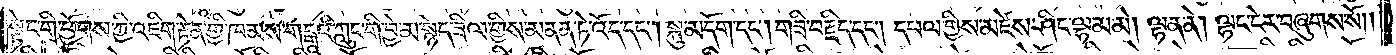སྟེང་གི་ཕྱོགས་ཀྱི་འཇིག་རྟེན་གྱི་ཁམས་གངྒཱའི་ཀླུང་གི་བྱེ་མ་སྙེད་ཟིལ་གྱིས་མནན་ཏེ་འོད་དང༌། སྐུ་མདོག་དང༌། གཟི་བརྗིད་དང༌། དཔལ་གྱིས་མཛེས་ཤིང་ལྷམ་མེ། ལྷན་ནེ། ལྷང་ངེར་བཞུགས་སོ༎
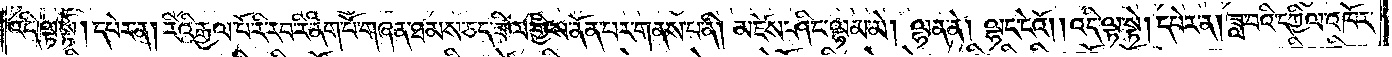འདི་ལྟ་སྟེ། དཔེར་ན། རིའི་རྒྱལ་པོ་རི་རབ་རི་ནག་པོ་གཞན་ཐམས་ཅད་ཟིལ་གྱིས་ནོན་པར་གནས་པ་ནི། མཛེས་ཤིང་ལྷམ་མེ། ལྷན་ནེ། ལྷང་ངེའོ། །འདི་ལྟ་སྟེ། དཔེར་ན། ཟླ་བའི་དཀྱིལ་འཁོར་
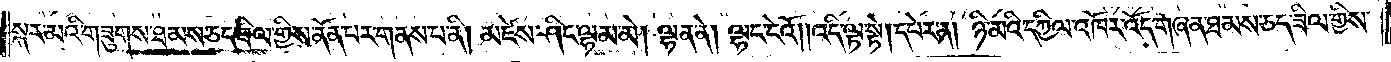སྐར་མའི་གཟུགས་ཐམས་ཅད་ཟིལ་གྱིས་ནོན་པར་གནས་པ་ནི། མཛེས་ཤིང་ལྷམ་མེ། ལྷན་ནེ། ལྷང་ངེའོ། །འདི་ལྟ་སྟེ། དཔེར་ན། ཉི་མའི་དཀྱིལ་འཁོར་འོད་གཞན་ཐམས་ཅད་ཟིལ་གྱིས་
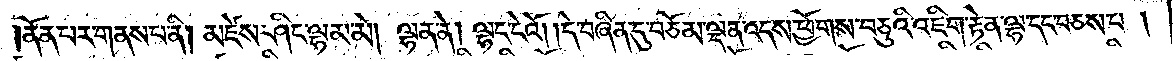ནོན་པར་གནས་པ་ནི། མཛེས་ཤིང་ལྷམ་མེ། ལྷན་ནེ། ལྷང་ངེའོ། །དེ་བཞིན་དུ་བཅོམ་ལྡན་འདས་ཕྱོགས་བཅུའི་འཇིག་རྟེན་ལྷ་དང་བཅས་པ།
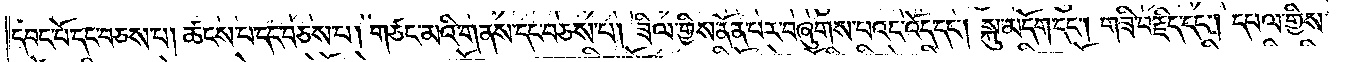དབང་པོ་དང་བཅས་པ། ཚངས་པ་དང་བཅས་པ། གཙང་མའི་གནས་དང་བཅས་པ། ཟིལ་གྱིས་ནོན་པར་བཞུགས་པའང་འོད་དང༌། སྐུ་མདོག་དང༌། གཟི་བརྗིད་དང༌། དཔལ་གྱིས་
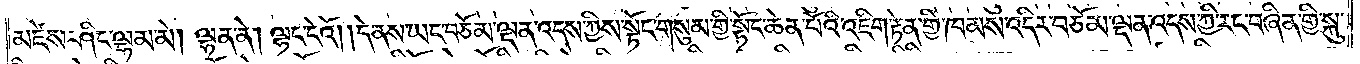མཛེས་ཤིང་ལྷམ་མེ། ལྷན་ནེ། ལྷང་ངེའོ། །དེ་ནས་ཡང་བཅོམ་ལྡན་འདས་ཀྱིས་སྟོང་གསུམ་གྱི་སྟོང་ཆེན་པོའི་འཇིག་རྟེན་གྱི་ཁམས་འདིར་བཅོམ་ལྡན་འདས་ཀྱི་རང་བཞིན་གྱི་སྐུ་
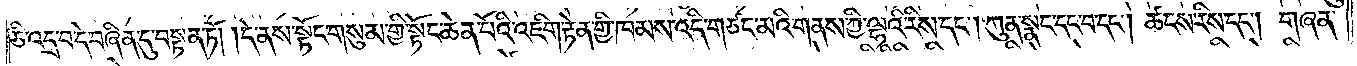ཅི་འདྲ་བ་དེ་བཞིན་དུ་བསྟན་ཏོ། །དེ་ནས་སྟོང་གསུམ་གྱི་སྟོང་ཆེན་པོའི་འཇིག་རྟེན་གྱི་ཁམས་འདི་གཙང་མའི་གནས་ཀྱི་ལྷའི་རིས་དང༌། ཀུན་སྣང་དང་བ་དང༌། ཚངས་རིས་དང༌། གཞན་
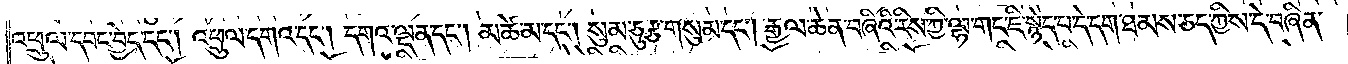འཕྲུལ་དབང་བྱེད་དང༌། འཕྲུལ་དགའ་དང༌། དགའ་ལྡན་དང༌། མཚེ་མ་དང༌། སུམ་ཅུ་རྩ་གསུམ་དང༌། རྒྱལ་ཆེན་བཞིའི་རིས་ཀྱི་ལྷ་གང་ཇི་སྙེད་པ་དེ་དག་ཐམས་ཅད་ཀྱིས་དེ་བཞིན་
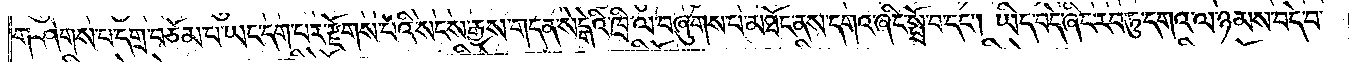གཤེགས་པ་དགྲ་བཅོམ་པ་ཡང་དག་པར་རྫོགས་པའི་སངས་རྒྱས་གདན་སེངྒེའི་ཁྲི་ལ་བཞུགས་པ་མཐོང་ནས་དགའ་ཞིང་སྤྲོ་བ་དང༌། ཡིད་བདེ་ཞིང་རབ་ཏུ་དགའ་ལ་ཉམས་བདེ་བ་
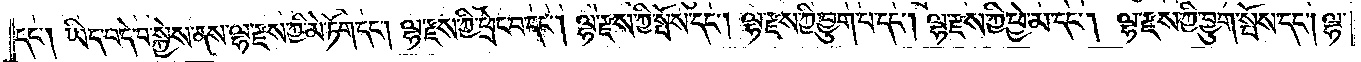དང༌། ཡིད་བདེ་བ་སྐྱེས་ནས་ལྷ་རྫས་ཀྱི་མེ་ཏོག་དང༌། ལྷ་རྫས་ཀྱི་ཕྲེང་བ་དང༌། ལྷ་རྫས་ཀྱི་སྤོས་དང༌། ལྷ་རྫས་ཀྱི་བྱུག་པ་དང༌། ལྷ་རྫས་ཀྱི་ཕྱེ་མ་དང༌། ལྷ་རྫས་ཀྱི་བྱུག་སྤོས་དང༌། ལྷ་
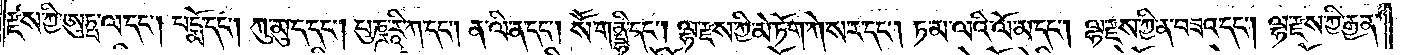རྫས་ཀྱི་ཨུཏྤ་ལ་དང༌། པདྨོ་དང༌། ཀུ་མུ་ད་དང༌། པུཎྜ་རཱི་ཀ་དང༌། ན་ལི་ན་དང༌། སཽ་གནྡྷི་དང༌། ལྷ་རྫས་ཀྱི་མེ་ཏོག་ཀེ་ས་ར་དང༌། ཏ་མ་ལའི་ལོ་མ་དང༌། ལྷ་རྫས་ཀྱི་ན་བཟའ་དང༌། ལྷ་རྫས་ཀྱི་རྒྱན་
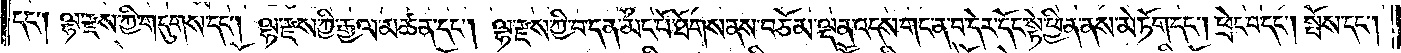དང༌། ལྷ་རྫས་ཀྱི་གདུགས་དང༌། ལྷ་རྫས་ཀྱི་རྒྱལ་མཚན་དང༌། ལྷ་རྫས་ཀྱི་བ་དན་མང་པོ་ཐོགས་ནས་བཅོམ་ལྡན་འདས་གང་ན་བ་དེར་དོང་སྟེ་ཕྱིན་ནས་མེ་ཏོག་དང༌། ཕྲེང་བ་དང༌། སྤོས་དང༌།
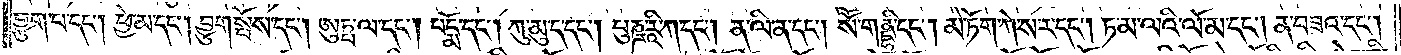བྱུག་པ་དང༌། ཕྱེ་མ་དང༌། བྱུག་སྤོས་དང༌། ཨུཏྤ་ལ་དང༌། པདྨོ་དང༌། ཀུ་མུ་ད་དང༌། པུཎྜ་རཱི་ཀ་དང༌། ན་ལི་ན་དང༌། སཽ་གནྡྷི་དང༌། མེ་ཏོག་ཀེ་ས་ར་དང༌། ཏ་མ་ལའི་ལོ་མ་དང༌། ན་བཟའ་དང༌།
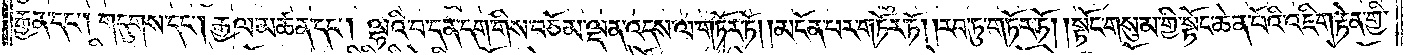རྒྱན་དང༌། གདུགས་དང༌། རྒྱལ་མཚན་དང༌། ལྷའི་བ་དན་དག་གིས་བཅོམ་ལྡན་འདས་ལ་གཏོར་ཏོ། །མངོན་པར་གཏོར་ཏོ། །རབ་ཏུ་གཏོར་ཏོ། །སྟོང་གསུམ་གྱི་སྟོང་ཆེན་པོའི་འཇིག་རྟེན་གྱི་
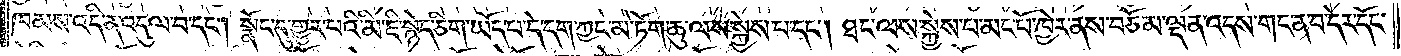ཁམས་འདི་ན་འདུལ་བ་དང༌། སྣོད་དུ་གྱུར་པའི་མི་ཇི་སྙེད་ཅིག་ཡོད་པ་དེ་དག་ཀྱང་མེ་ཏོག་ཆུ་ལས་སྐྱེས་པ་དང༌། ཐང་ལས་སྐྱེས་པ་མང་པོ་ཁྱེར་ནས་བཅོམ་ལྡན་འདས་གང་ན་བ་དེར་དོང་
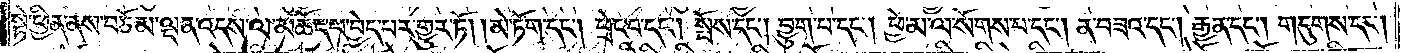སྟེ་ཕྱིན་ནས་བཅོམ་ལྡན་འདས་ལ་མཆོད་པ་བྱེད་པར་གྱུར་ཏོ། །མེ་ཏོག་དང༌། ཕྲེང་བ་དང༌། སྤོས་དང༌། བྱུག་པ་དང༌། ཕྱེ་མ་ལ་སོགས་པ་དང༌། ན་བཟའ་དང༌། རྒྱན་དང༌། གདུགས་དང༌།
